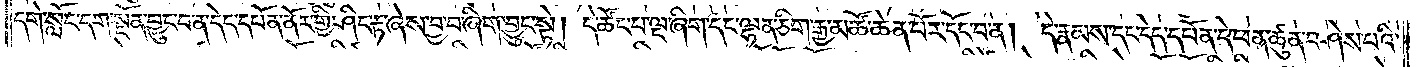དགེ་སློང་དག་སྔོན་བྱུང་བ་ན་དེད་དཔོན་ནོར་གྱི་ཤིང་རྟ་ཞེས་བྱ་བ་ཞིག་བྱུང་སྟེ། དེ་ཚོང་པ་ལྔ་ཞིག་དང་ལྷན་ཅིག་རྒྱ་མཚོ་ཆེན་པོར་དོང་བ་ན། དེ་རྣམས་དང་དེད་དཔོན་དེ་ཕན་ཚུན་བཤེས་པའི་
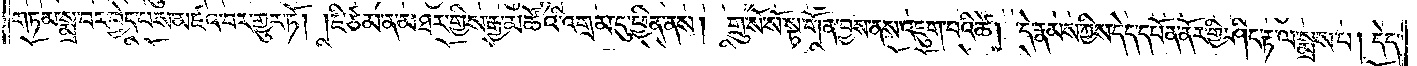གཏམ་སྨྲ་བར་བྱེད་པས་མཛའ་བར་གྱུར་ཏོ། །ཇི་ཙམ་ན་མཐར་གྱིས་རྒྱ་མཚོའི་འགྲམ་དུ་ཕྱིན་ནས། གྲུ་སོ་སོ་སྟ་གོན་བྱས་ནས་འཇུག་པའི་ཚེ། དེ་རྣམས་ཀྱིས་དེད་དཔོན་ནོར་གྱི་ཤིང་རྟ་ལ་སྨྲས་པ། དེད་
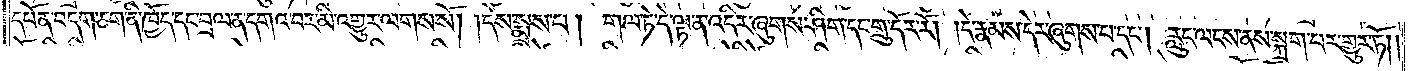དཔོན་བདག་ཅག་ནི་ཁྱོད་དང་བྲལ་ན་དགའ་བར་མི་འགྱུར་ལགས་སོ། །དེས་སྨྲས་པ། གལ་ཏེ་དེ་ལྟ་ན་འདིར་ཞུགས་ཤིག་དང་གྲུ་དོར་རོ། །དེ་རྣམས་དེར་ཞུགས་པ་དང༌། རླུང་ལངས་ནས་སྐྲག་པར་གྱུར་ཏོ། །
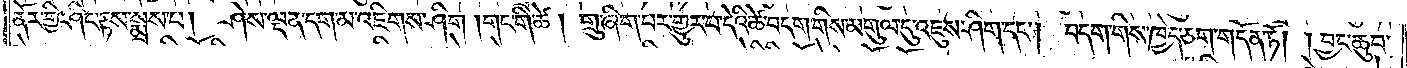ནོར་གྱི་ཤིང་རྟས་སྨྲས་པ། ཤེས་ལྡན་དག་མ་འཇིགས་ཤིག །གང་གི་ཚེ། གྲུ་ཞིག་པར་གྱུར་པ་དེའི་ཚེ་བདག་གིས་མགུལ་དུ་འཇུས་ཤིག་དང༌། བདག་གིས་ཁྱེད་ཅག་གདོན་ཏོ། །བྱང་ཆུབ་
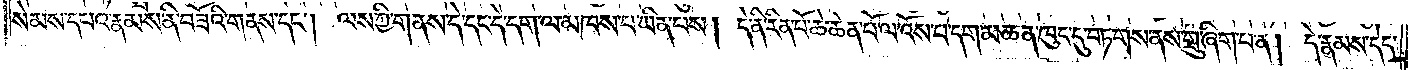སེམས་དཔའ་རྣམས་ནི་བཟོའི་གནས་དང༌། ལས་ཀྱི་གནས་དེ་དང་དེ་དག་ལ་མཁས་པ་ཡིན་པས། དེ་ནི་རིན་པོ་ཆེ་ཆེན་པོ་ལ་འོས་པ་དག་མཆན་ཁུང་དུ་བཏགས་ནས་གྲུ་ཞིག་པ་ན། དེ་རྣམས་དེད་
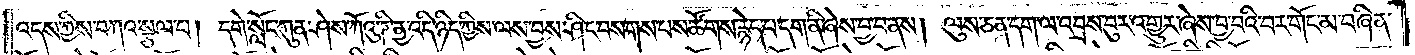འདས་ཀྱིས་བཀའ་སྩལ་པ། དགེ་སློང་ཀུན་ཤེས་ཀོའུ་ཌི་ནྱ་འདི་ཉིད་ཀྱིས་ལས་བྱས་ཤིང་བསགས་པས་ཚོགས་རྙེད་པ་དག་ནི་ཞེས་བྱ་བ་ནས། ལུས་ཅན་དག་ལ་འབྲས་བུར་འགྱུར་ཞེས་བྱ་བའི་བར་གོང་མ་བཞིན་
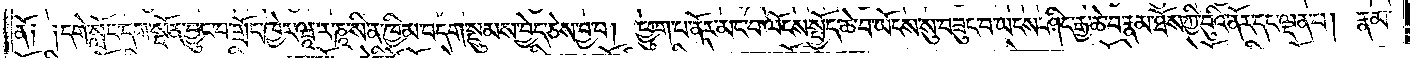ནོ༑ ༑དགེ་སློང་དག་སྔོན་བྱུང་བ་གྲོང་ཁྱེར་ཝཱ་ར་ཎཱ་སི་ན་ཁྱིམ་བདག་སྡུམས་བྱེད་ཅེས་བྱ་བ། ཕྱུག་པ་ནོར་མང་བ་ལོངས་སྤྱོད་ཆེ་བ་ཡོངས་སུ་བཟུང་བ་ཡངས་ཤིང་རྒྱ་ཆེ་བ་རྣམ་ཐོས་ཀྱི་བུའི་ནོར་དང་ལྡན་པ། རྣམ་
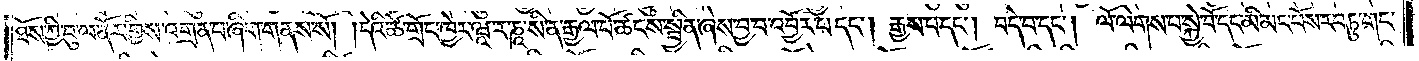ཐོས་ཀྱི་བུ་ལ་ནོར་གྱིས་འགྲན་པ་ཞིག་གནས་སོ། །དེའི་ཚེ་གྲོང་ཁྱེར་ཝཱ་ར་ཎཱ་སི་ན་རྒྱལ་པོ་ཚངས་སྦྱིན་ཞེས་བྱ་བ་འབྱོར་པ་དང༌། རྒྱས་པ་དང༌། བདེ་བ་དང༌། ལོ་ལེགས་པ་སྐྱེ་བོ་དང་མི་མང་པོས་རབ་ཏུ་གང་
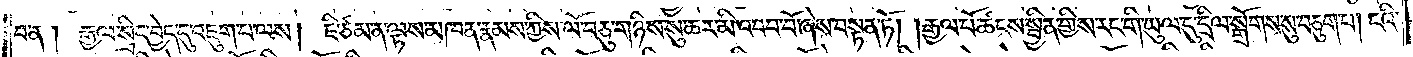བ་ན། རྒྱལ་སྲིད་བྱེད་དུ་འཇུག་པ་ལས། ཇི་ཙམ་ན་ལྟས་མཁན་རྣམས་ཀྱིས་ལོ་བཅུ་གཉིས་སུ་ཆར་མི་འབབ་བོ་ཞེས་བསྟན་ཏོ། །རྒྱལ་པོ་ཚངས་སྦྱིན་གྱིས་རང་གི་ཡུལ་དུ་དྲིལ་སྒྲོགས་སུ་བཅུག་པ། ངའི་
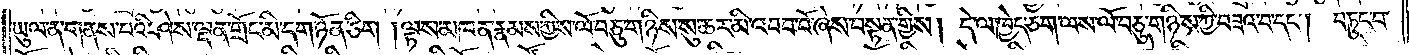ཡུལ་ན་གནས་པའི་ཤེས་ལྡན་གྲོང་མི་དག་ཉོན་ཅིག །ལྟས་མཁན་རྣམས་ཀྱིས་ལོ་བཅུ་གཉིས་སུ་ཆར་མི་འབབ་བོ་ཞེས་བསྟན་གྱིས། དེ་ལ་ཁྱེད་ཅག་ལས་ལོ་བཅུ་གཉིས་ཀྱི་བཟའ་བ་དང༌། བཏུང་བ་
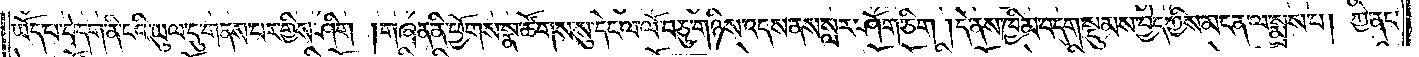ཡོད་པ་དེ་དག་ནི་ངའི་ཡུལ་དུ་གནས་པར་གྱིས་ཤིག །གཞན་ནི་ཕྱོགས་སྣ་ཚོགས་སུ་དེང་ལ་ལོ་བཅུ་གཉིས་འདས་ནས་སླར་ཤོག་ཅིག །དེ་ནས་ཁྱིམ་བདག་སྡུམས་བྱེད་ཀྱིས་མངན་ལ་སྨྲས་པ། ཀྱེ་ནང་
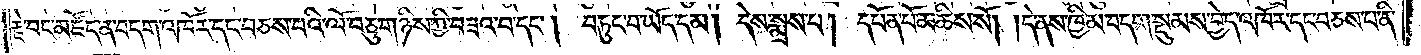རྗེ་བང་མཛོད་ན་བདག་འཁོར་དང་བཅས་པའི་ལོ་བཅུ་གཉིས་ཀྱི་བཟའ་བ་དང༌། བཏུང་བ་ཡོད་དམ། དེས་སྨྲས་པ། དཔོན་པོ་མཆིས་སོ། །དེ་ནས་ཁྱིམ་བདག་སྡུམས་བྱེད་འཁོར་དང་བཅས་པ་ནི་
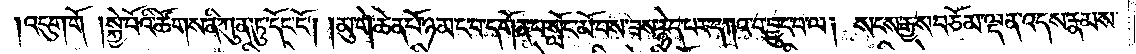།འདུག་གོ །སྐྱེ་བོའི་ཚོགས་ནི་ཀུན་ཏུ་དོང་ངོ༌། །མུ་གེ་ཆེན་པོ་ཉམ་ང་བ་དགོན་པ་སློང་མོ་བས་ཟས་རྙེད་པར་དཀའ་བ་བྱུང་བ་ལ། སངས་རྒྱས་བཅོམ་ལྡན་འདས་རྣམས་
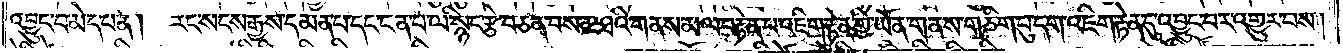འབྱུང་བ་མེད་པ་ན། རང་སངས་རྒྱས་དམན་པ་དང་ངན་པ་ལ་སྙིང་རྩེ་བ་ཅན་བས་མཐའི་གནས་མལ་བརྟེན་པ་འཇིག་རྟེན་གྱི་ཡོན་གནས་གཅིག་པུ་དག་འཇིག་རྟེན་དུ་འབྱུང་བར་འགྱུར་བས།
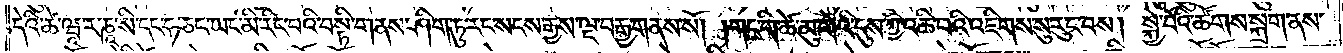དེའི་ཚེ་ཝཱ་ར་ཎཱ་སི་དང་ཧ་ཅང་ཡང་མི་རིང་བའི་བསྟི་གནས་ཤིག་ཏུ་རང་སངས་རྒྱས་ལྔ་བརྒྱ་གནས་སོ། །གང་གི་ཚེ་མུ་གེའི་དུས་ཀྱི་འཆི་བའི་འཇིགས་སུ་རུང་བས། སྐྱེ་བོའི་ཚོགས་སྐྲག་ནས་
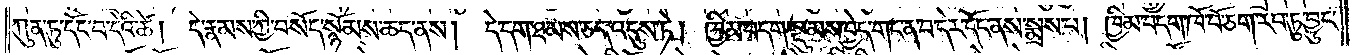ཀུན་ཏུ་དོང་བ་དེའི་ཚེ། དེ་རྣམས་ཀྱི་བསོད་སྙོམས་ཆད་ནས། དེ་དག་ཐམས་ཅད་འདུས་ཏེ། ཁྱིམ་བདག་སྡུམས་བྱེད་གང་ན་བ་དེར་དོང་ནས་སྨྲས་པ། ཁྱིམ་བདག་ཁོ་བོ་ཅག་རབ་ཏུ་བྱུང་
